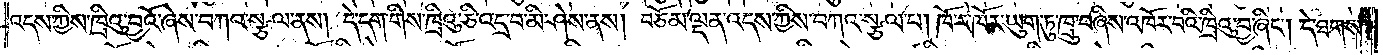འདས་ཀྱིས་ཁྲིའུ་བྱའོ་ཞེས་བཀའ་སྩལ་ནས། དེ་དག་གིས་ཁྲིའུ་ཅི་འདྲ་བ་མི་ཤེས་ནས། བཅོམ་ལྡན་འདས་ཀྱིས་བཀའ་སྩལ་པ། ཁོ་ར་ཁོར་ཡུག་ཏུ་ཁྲུ་བཞིས་འཁོར་བའི་ཁྲིའུ་བྱ་ཞིང༌། དེ་ཐགས་
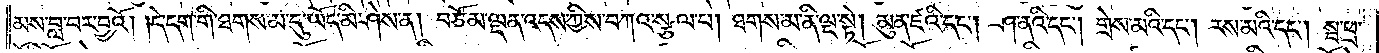མས་བླ་བར་བྱའོ། །དེ་དག་གི་ཐགས་མ་དུ་ཡོད་མི་ཤེས་ན། བཅོམ་ལྡན་འདས་ཀྱིས་བཀའ་སྩལ་པ། ཐགས་མ་ནི་ལྔ་སྟེ། མུན་ཛའི་དང༌། ཤ་ནའི་དང༌། གྲེས་མའི་དང༌། རས་མའི་དང༌། སྦ་ཕྲ་
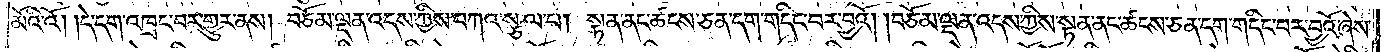མོའི་འོ། །དེ་དག་འཁྲང་བར་གྱུར་ནས། བཅོམ་ལྡན་འདས་ཀྱིས་བཀའ་སྩལ་པ། སྟན་ནང་ཚངས་ཅན་དག་གདིང་བར་བྱའོ། །བཅོམ་ལྡན་འདས་ཀྱིས་སྟན་ནང་ཚངས་ཅན་དག་གདིང་བར་བྱའོ་ཞེས་
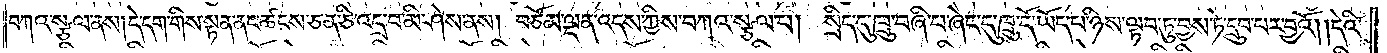བཀའ་སྩལ་ནས། དེ་དག་གིས་སྟན་ནང་ཚངས་ཅན་ཅི་འདྲ་བ་མི་ཤེས་ནས། བཅོམ་ལྡན་འདས་ཀྱིས་བཀའ་སྩལ་པ། སྲིད་དུ་ཁྲུ་བཞི་པ་ཞེང་དུ་ཁྲུ་དོ་ཡོད་པ་ཉིས་ལྟབ་ཏུ་བྱས་ཏེ་དྲུབ་པར་བྱའོ། །དེའི་
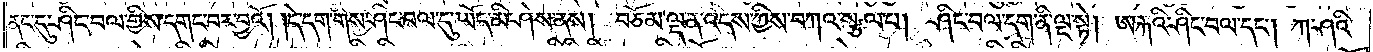ནང་དུ་ཤིང་བལ་གྱིས་དགང་བར་བྱའོ། །དེ་དག་གིས་ཤིང་བལ་དུ་ཡོད་མི་ཤེས་ནས། བཅོམ་ལྡན་འདས་ཀྱིས་བཀའ་སྩལ་པ། ཤིང་བལ་དག་ནི་ལྔ་སྟེ། ཨརྐའི་ཤིང་བལ་དང༌། ཀ་ཤའི་
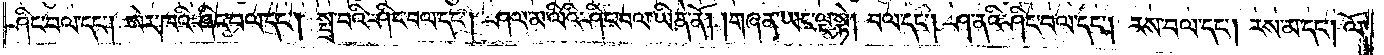ཤིང་བལ་དང༌། ཨེར་ཁའི་ཤིང་བལ་དང༌། སྤྲ་བའི་ཤིང་བལ་དང༌། ཤལ་མ་ལིའི་ཤིང་བལ་ཡིན་ནོ། །གཞན་ཡང་ལྔ་སྟེ། བལ་དང༌། ཤ་ནའི་ཤིང་བལ་དང༌། རས་བལ་དང༌། རས་མ་དང༌། ལོ་
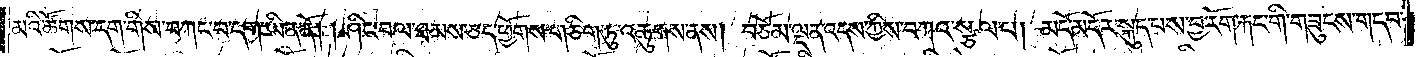མའི་ཚོགས་དག་གིས་བཀང་བ་དག་ཡིན་ནོ། །ཤིང་བལ་ཐམས་ཅད་ཕྱོགས་གཅིག་ཏུ་འཆུགས་ནས། བཅོམ་ལྡན་འདས་ཀྱིས་བཀའ་སྩལ་པ། མདོ་མདོར་སྐུད་པས་བྱ་རོག་རྐང་གི་གཟུངས་གདབ་
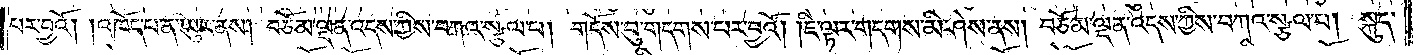པར་བྱའོ། །འཁོད་པ་ན་ཡུར་ནས། བཅོམ་ལྡན་འདས་ཀྱིས་བཀའ་སྩལ་པ། གདོས་བུ་གདགས་པར་བྱའོ། །ཇི་ལྟར་གདགས་མི་ཤེས་ནས། བཅོམ་ལྡན་འདས་ཀྱིས་བཀའ་སྩལ་པ། སྐུད་
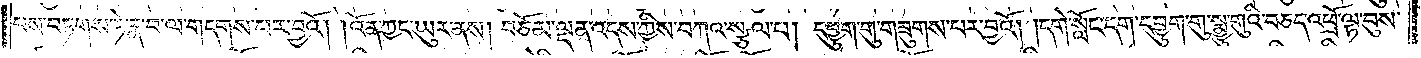པས་བཏགས་ཏེ་རྣ་བ་ལ་གདགས་པར་བྱའོ། །འོན་ཀྱང་ཡུར་ནས། བཅོམ་ལྡན་འདས་ཀྱིས་བཀའ་སྩལ་པ། དབྱུག་གུ་གཟུགས་པར་བྱའོ། །དགེ་སློང་དག་དབྱུག་གུ་སྨྱུ་གུའི་བཅད་འཕྲོ་ལྟ་བུས་
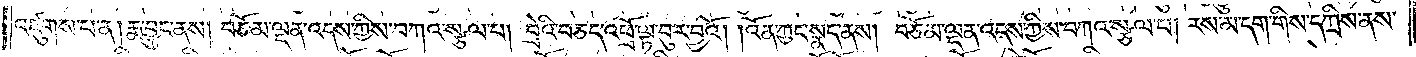འཛུགས་པ་ན། རྨ་བྱུང་ནས། བཅོམ་ལྡན་འདས་ཀྱིས་བཀའ་སྩལ་པ། བྲེའི་བཅད་འཕྲོ་ལྟ་བུར་བྱའོ། །འོན་ཀྱང་སྣད་ནས། བཅོམ་ལྡན་འདས་ཀྱིས་བཀའ་སྩལ་པ། རས་མ་དག་གིས་དཀྲིས་ནས་
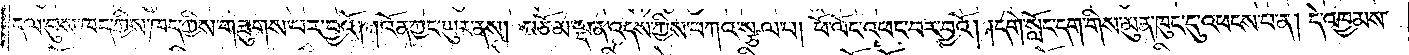དལ་བུས་ཁད་ཀྱིས་ཁད་ཀྱིས་གཟུགས་པར་བྱའོ། །འོན་ཀྱང་ཡུར་ནས། བཅོམ་ལྡན་འདས་ཀྱིས་བཀའ་སྩལ་པ། ཕོ་ལོང་འཕང་བར་བྱའོ། །དགེ་སློང་དག་གིས་མུན་ཁུང་དུ་འཕངས་པ་ན། དེ་འཁྱམས་
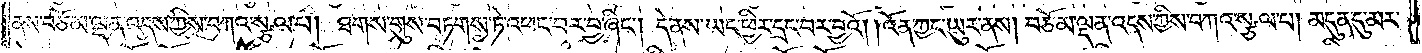ནས་བཅོམ་ལྡན་འདས་ཀྱིས་བཀའ་སྩལ་པ། ཐགས་གུས་བཏགས་ཏེ་འཕང་བར་བྱ་ཞིང༌། དེ་ནས་ཡང་ཕྱིར་དྲང་བར་བྱའོ། །འོན་ཀྱང་ཡུར་ནས། བཅོམ་ལྡན་འདས་ཀྱིས་བཀའ་སྩལ་པ། མདུན་དུ་མར་
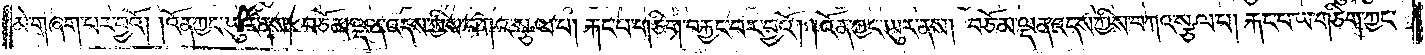མེ་གཞག་པར་བྱའོ། །འོན་ཀྱང་ཡུར་ནས། བཅོམ་ལྡན་འདས་ཀྱིས་བཀའ་སྩལ་པ། རྐང་པ་གཅིག་བརྐྱང་བར་བྱའོ། །འོན་ཀྱང་ཡུར་ནས། བཅོམ་ལྡན་འདས་ཀྱིས་བཀའ་སྩལ་པ། རྐང་པ་ཡ་གཅིག་ཀྱང་
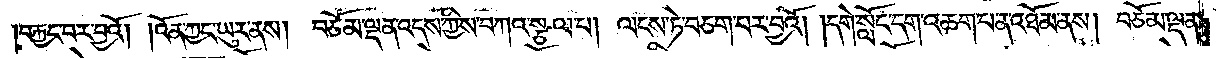བརྐྱང་བར་བྱའོ། །འོན་ཀྱང་ཡུར་ནས། བཅོམ་ལྡན་འདས་ཀྱིས་བཀའ་སྩལ་པ། ལངས་ཏེ་བཅག་པར་བྱའོ། །དགེ་སློང་དག་འཆག་པ་ན་འཐོམ་ནས། བཅོམ་ལྡན་
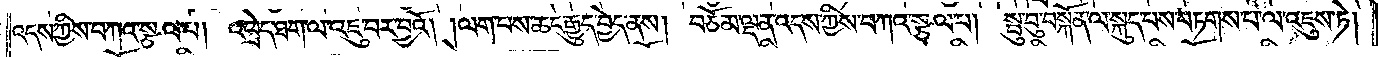འདས་ཀྱིས་བཀའ་སྩལ་པ། འཕྲེད་ཐག་ལ་འཇུ་བར་བྱའོ། །ལག་པས་ཆང་རྒྱུད་བྱེད་ནས། བཅོམ་ལྡན་འདས་ཀྱིས་བཀའ་སྩལ་པ། སྦུ་བུ་བསྐོན་ལ་སྐུད་པས་བཏགས་པ་ལ་འཇུས་ཏེ།
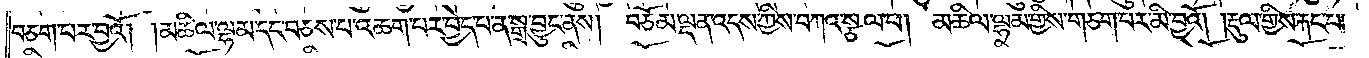བཅག་པར་བྱའོ། །མཆིལ་ལྷམ་དང་བཅས་པ་འཆག་པར་བྱེད་པ་ན་སྒྲ་བྱུང་ནས། བཅོམ་ལྡན་འདས་ཀྱིས་བཀའ་སྩལ་པ། མཆིལ་ལྷམ་གྱིས་གཅག་པར་མི་བྱའོ། །རྡུལ་གྱིས་རྐང་པ་
